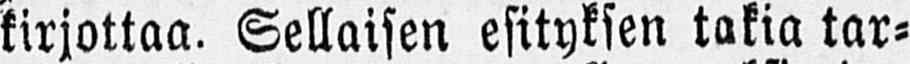kirjottaa. Sellaisen esityksen takia tar-
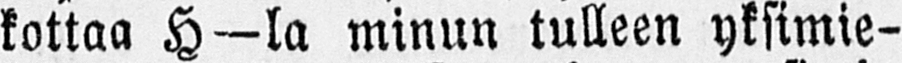kottaa H—la minun tulleen yksimie-
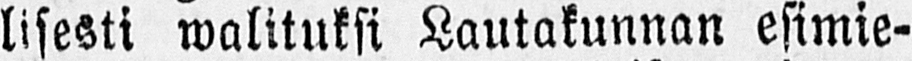lisesti walituksi Lautakunnan esimie-
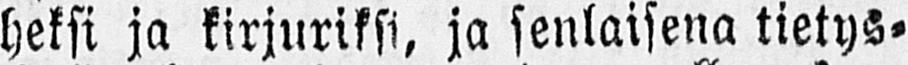heksi ja kirjuriksi, ja senlaisena tietys-
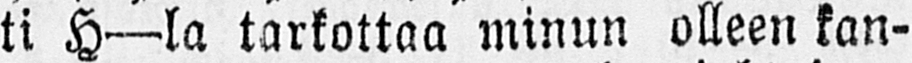ti H —la tarkottaa minun olleen kan-
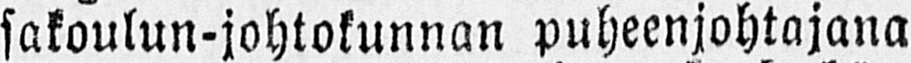sakoulun-johtokunnan puheenjohtajana
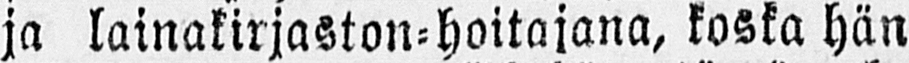ja lainakirjaston-hoitajana, koska hän
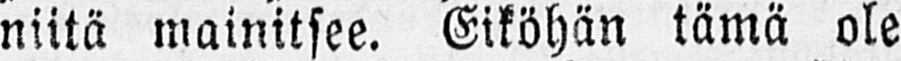niitä mainitsee. Eiköhän tämä ole
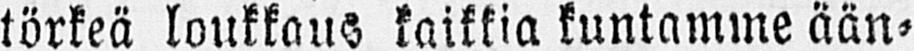törkeä loukkaus kaikkia kuntamme ään-
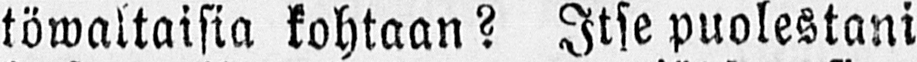töwaltaisia kohtaan? Itse puolestani
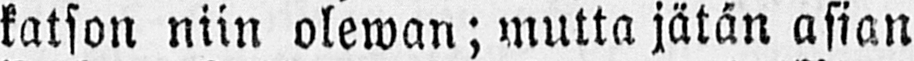katson niin olewan; mutta jätän asian
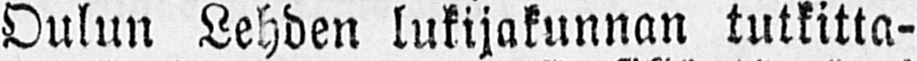Oulun Lehden lukijakunnan tutkitta-
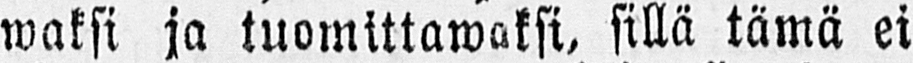waksi ja tuomittawaksi, sillä tämä ei
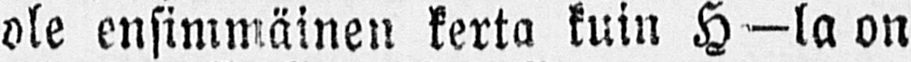ole ensimmäinen kerta kuin H—la on
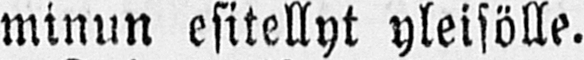minun esitellyt yleisölle.
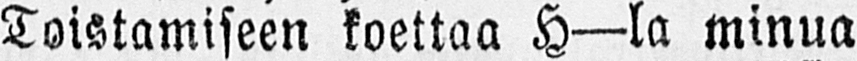Toistamiseen koettaa H —la minua
